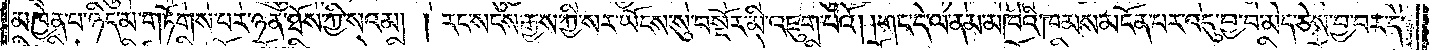མཁྱེན་པ་ཉིད་མ་གཏོགས་པར་ཉན་ཐོས་ཀྱི་སའམ། རང་སངས་རྒྱས་ཀྱི་སར་ཡོངས་སུ་བསྔོར་མི་འཇུག་པའོ། །གང་དེ་ལ་ནམ་མཁའི་ཁམས་མངོན་པར་འདུ་བྱ་བ་མེད་ཅེས་བྱ་བར་དེ་
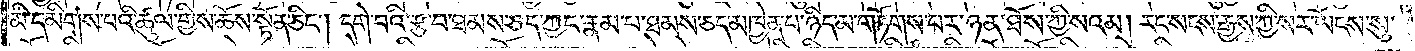མི་དམིགས་པའི་ཚུལ་གྱིས་ཆོས་སྟོན་ཅིང༌། དགེ་བའི་རྩ་བ་ཐམས་ཅད་ཀྱང་རྣམ་པ་ཐམས་ཅད་མཁྱེན་པ་ཉིད་མ་གཏོགས་པར་ཉན་ཐོས་ཀྱི་སའམ། རང་སངས་རྒྱས་ཀྱི་སར་ཡོངས་སུ་
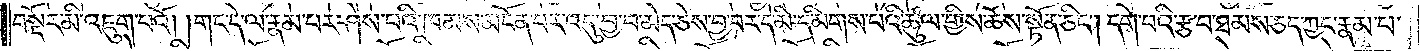བསྔོར་མི་འཇུག་པའོ། །གང་དེ་ལ་རྣམ་པར་ཤེས་པའི་ཁམས་མངོན་པར་འདུ་བྱ་བ་མེད་ཅེས་བྱ་བར་དེ་མི་དམིགས་པའི་ཚུལ་གྱིས་ཆོས་སྟོན་ཅིང༌། དགེ་བའི་རྩ་བ་ཐམས་ཅད་ཀྱང་རྣམ་པ་
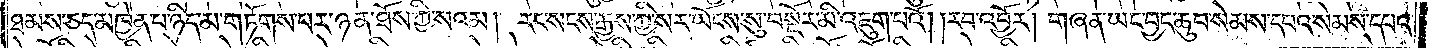ཐམས་ཅད་མཁྱེན་པ་ཉིད་མ་གཏོགས་པར་ཉན་ཐོས་ཀྱི་སའམ། རང་སངས་རྒྱས་ཀྱི་སར་ཡོངས་སུ་བསྔོར་མི་འཇུག་པའོ། །རབ་འབྱོར། གཞན་ཡང་བྱང་ཆུབ་སེམས་དཔའ་སེམས་དཔའ་
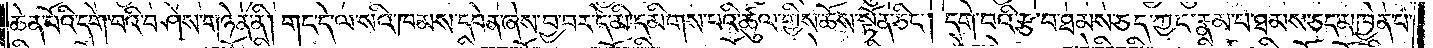ཆེན་པོའི་དགེ་བའི་བཤེས་གཉེན་ནི། གང་དེ་ལ་སའི་ཁམས་དབེན་ཞེས་བྱ་བར་དེ་མི་དམིགས་པའི་ཚུལ་གྱིས་ཆོས་སྟོན་ཅིང༌། དགེ་བའི་རྩ་བ་ཐམས་ཅད་ཀྱང་རྣམ་པ་ཐམས་ཅད་མཁྱེན་པ་
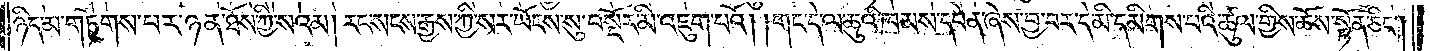ཉིད་མ་གཏོགས་པར་ཉན་ཐོས་ཀྱི་སའམ། རང་སངས་རྒྱས་ཀྱི་སར་ཡོངས་སུ་བསྔོར་མི་འཇུག་པའོ། །གང་དེ་ལ་ཆུའི་ཁམས་དབེན་ཞེས་བྱ་བར་དེ་མི་དམིགས་པའི་ཚུལ་གྱིས་ཆོས་སྟོན་ཅིང༌།
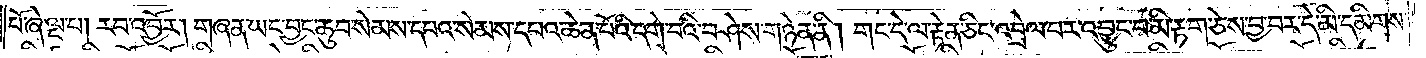པོ་ཞེ་ལྔ་པ། རབ་འབྱོར། གཞན་ཡང་བྱང་ཆུབ་སེམས་དཔའ་སེམས་དཔའ་ཆེན་པོའི་དགེ་བའི་བཤེས་གཉེན་ནི། གང་དེ་ལ་རྟེན་ཅིང་འབྲེལ་པར་འབྱུང་བ་མི་རྟག་ཅེས་བྱ་བར་དེ་མི་དམིགས་
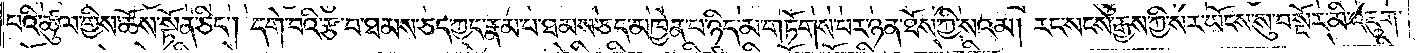བའི་ཚུལ་གྱིས་ཆོས་སྟོན་ཅིང༌། དགེ་བའི་རྩ་བ་ཐམས་ཅད་ཀྱང་རྣམ་པ་ཐམས་ཅད་མཁྱེན་པ་ཉིད་མ་གཏོགས་པར་ཉན་ཐོས་ཀྱི་སའམ། རང་སངས་རྒྱས་ཀྱི་སར་ཡོངས་སུ་བསྔོར་མི་འཇུག་
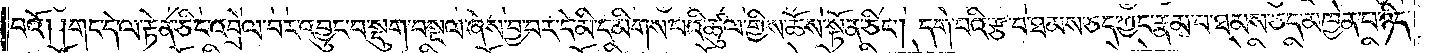བའོ། །གང་དེ་ལ་རྟེན་ཅིང་འབྲེལ་བར་འབྱུང་བ་སྡུག་བསྔལ་ཞེས་བྱ་བར་དེ་མི་དམིགས་པའི་ཚུལ་གྱིས་ཆོས་སྟོན་ཅིང༌། དགེ་པའི་རྩ་བ་ཐམས་ཅད་ཀྱང་རྣམ་པ་ཐམས་ཅད་མཁྱེན་པ་ཉིད་
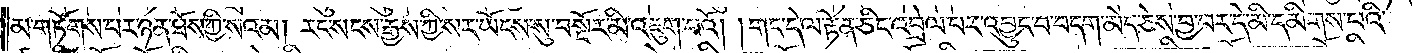མ་གཏོགས་པར་ཉན་ཐོས་ཀྱི་སའམ། རང་སངས་རྒྱས་ཀྱི་སར་ཡོངས་སུ་བསྔོར་མི་འཇུག་པའོ། །གང་དེ་ལ་རྟེན་ཅིང་འབྲེལ་པར་འབྱུང་བ་བདག་མེད་ཅེས་བྱ་བར་དེ་མི་དམིགས་པའི་
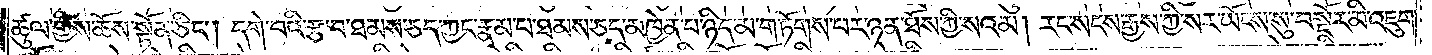ཚུལ་གྱིས་ཆོས་སྟོན་ཅིང༌། དགེ་བའི་རྩ་བ་ཐམས་ཅད་ཀྱང་རྣམ་པ་ཐམས་ཅད་མཁྱེན་པ་ཉིད་མ་གཏོགས་པར་ཉན་ཐོས་ཀྱི་སའམ། རང་སངས་རྒྱས་ཀྱི་སར་ཡོངས་སུ་བསྔོར་མི་འཇུག་
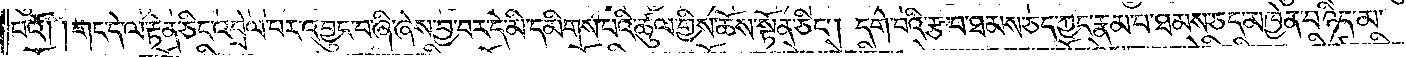པའོ། །གང་དེ་ལ་རྟེན་ཅིང་འབྲེལ་བར་འབྱུང་བ་ཞི་ཞེས་བྱ་བར་དེ་མི་དམིགས་པའི་ཚུལ་གྱིས་ཆོས་སྟོན་ཅིང༌། དགེ་བའི་རྩ་བ་ཐམས་ཅད་ཀྱང་རྣམ་པ་ཐམས་ཅད་མཁྱེན་པ་ཉིད་མ་
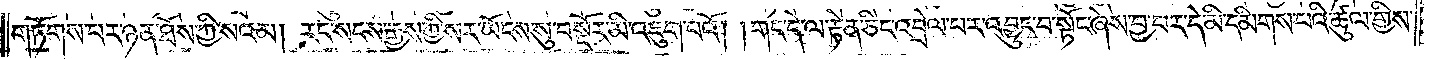གཏོགས་པར་ཉན་ཐོས་ཀྱི་སའམ། རང་སངས་རྒྱས་ཀྱི་སར་ཡོངས་སུ་བསྔོར་མི་འཇུག་པའོ། །གང་དེ་ལ་རྟེན་ཅིང་འབྲེལ་པར་འབྱུང་བ་སྟོང་ཞེས་བྱ་བར་དེ་མི་དམིགས་པའི་ཚུལ་གྱིས་
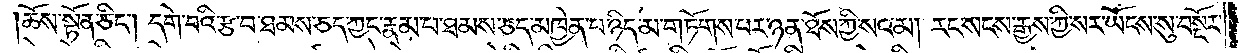ཆོས་སྟོན་ཅིང༌། དགེ་བའི་རྩ་བ་ཐམས་ཅད་ཀྱང་རྣམ་པ་ཐམས་ཅད་མཁྱེན་པ་ཉིད་མ་གཏོགས་པར་ཉན་ཐོས་ཀྱི་སའམ། རང་སངས་རྒྱས་ཀྱི་སར་ཡོངས་སུ་བསྔོར་
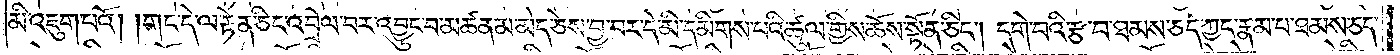མི་འཇུག་པའོ། །གང་དེ་ལ་རྟེན་ཅིང་འབྲེལ་བར་འབྱུང་བ་མཚན་མ་མེད་ཅེས་བྱ་བར་དེ་མི་དམིགས་པའི་ཚུལ་གྱིས་ཆོས་སྟོན་ཅིང༌། དགེ་བའི་རྩ་བ་ཐམས་ཅད་ཀྱང་རྣམ་པ་ཐམས་ཅད་
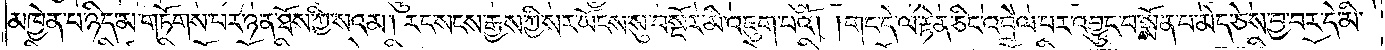མཁྱེན་པ་ཉིད་མ་གཏོགས་པར་ཉན་ཐོས་ཀྱི་སའམ། རང་སངས་རྒྱས་ཀྱི་སར་ཡོངས་སུ་བསྔོར་མི་འཇུག་པའོ། །གང་དེ་ལ་རྟེན་ཅིང་འབྲེལ་བར་འབྱུང་བ་སྨོན་པ་མེད་ཅེས་བྱ་བར་དེ་མི་
